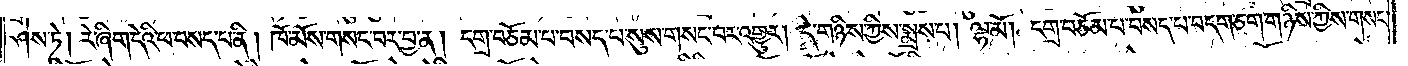ཤེས་ཏེ། རེ་ཞིག་དེའི་ཕ་བསད་པ་ནི། ཁོ་མོས་གསང་བར་བྱ་ན། དགྲ་བཅོམ་པ་བསད་པ་སུས་གསང་བར་འགྱུར། དེ་གཉིས་ཀྱིས་སྨྲས་པ། ལྷ་མོ། དགྲ་བཅོམ་པ་བསད་པ་བདག་ཅག་གཉིས་ཀྱིས་གསང་
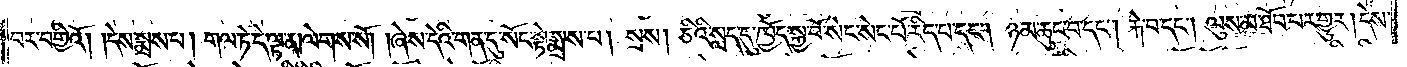བར་བགྱིའོ། །དེས་སྨྲས་པ། གལ་ཏེ་དེ་ལྟ་ན།ལེགས་སོ། །ཞེས་དེའི་གན་དུ་སོང་སྟེ་སྨྲས་པ། སྲས། ཅིའི་སླད་དུ་ཁྱོད་སྐྱ་བོ་སེང་སེང་པོ་རིད་པ་དང༌། ཉམ་ཆུང་བ་དང༌། རྐ་བ་དང༌། ལུས་མ་ཐོབ་པར་གྱུར། དེས་
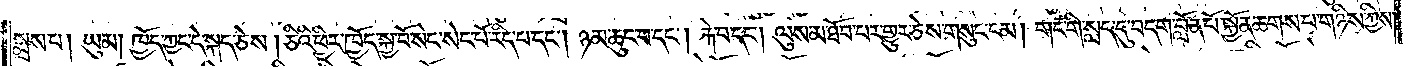སྨྲས་པ། ཡུམ། ཁྱོད་ཀྱང་དེ་སྐད་ཅེས། ཅིའི་ཕྱིར་ཁྱོད་སྐྱ་བོ་སེང་སེང་པོ་རིད་པ་དང༌། ཉམ་ཆུང་བ་དང༌། རྐེ་བ་དང་ལུས་མ་ཐོབ་པར་གྱུར་ཅིས་གསུང་ངམ། གང་གི་སླད་དུ་བདག་བློན་པོ་སྐྱོན་ཆགས་པ་གཉིས་ཀྱིས་
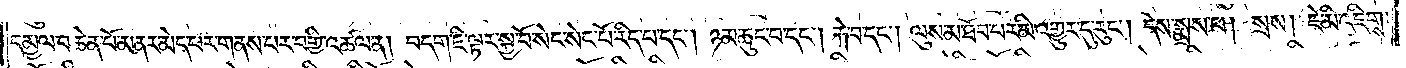དམྱལ་བ་ཆེན་པོ་མནར་མེད་པར་གནས་པར་བགྱི་འཚལ་ན། བདག་ཇི་ལྟར་སྐྱ་བོ་སེང་སེང་པོ་རིད་པ་དང༌། ཉམ་ཆུང་བ་དང༌། རྐེ་བ་དང༌། ལུས་མ་ཐོབ་པར་མི་འགྱུར་དུ་རུང༌། དེས་སྨྲས་པ། སྲས། ཇེ་མི་འཇིགས་
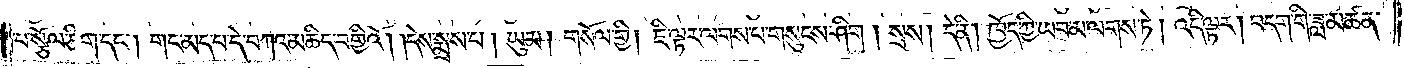པ་སྩོལ་ཅིག་དང༌། གང་མད་པ་དེ་བཀའ་མཆིད་བགྱིའོ། །དེས་སྨྲས་པ། ཡུམ། གསོལ་གྱི། ཇི་ལྟར་ལགས་པ་གསུངས་ཤིག །སྲས། དེ་ནི། ཁྱོད་ཀྱི་ཡབ་མ་ལགས་ཏེ། འདི་ལྟར། བདག་གི་ཟླ་མཚན་
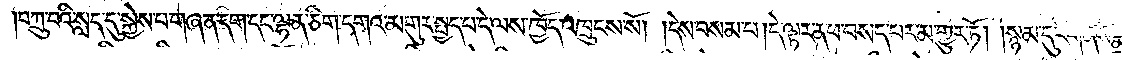བཀྲུ་བའི་སླད་དུ་སྐྱེས་པ་གཞན་དག་དང་ལྷན་ཅིག་དགའ་མགུར་སྤྱད་པ་དེ་ལས་ཁྱོད་འཁྲུངས་སོ། །དེས་བསམ་པ། དེ་ལྟར་ན་ཕ་བསད་པར་མ་གྱུར་ཏོ། །སྙམ་དུ་རིག་ནས་སྨྲས་
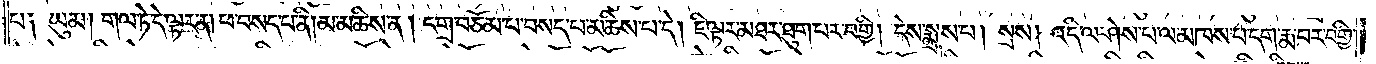པ༑ ཡུམ། གལ་ཏེ་དེ་ལྟར་ན། ཕ་བསད་པ་ནི། མ་མཆིས་ན། དགྲ་བཅོམ་པ་བསད་པ་མཆིས་པ་དེ། ཇི་ལྟར་མཐར་ཐུག་པར་བགྱི། དེས་སྨྲས་པ། སྲས། འདི་ལ་ཤེས་པ་ལ་མཁས་པ་དག་རྨ་བར་བགྱི་
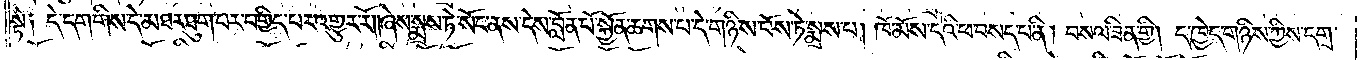སྟེ༑ དེ་དག་གིས་དེ་མཐར་ཐུག་པར་བགྱིད་པར་འགྱུར་རོ། །ཞེས་སྨྲས་ཏེ་སོང་ནས་དེས་བློན་པོ་སྐྱོན་ཆགས་པ་དེ་གཉིས་པོས་ཏེ་སྨྲས་པ། ཁོ་མོས་དེའི་ཕ་བསད་པ་ནི། བསལ་ཟིན་གྱི། ད་ཁྱེད་གཉིས་ཀྱིས་དགྲ་
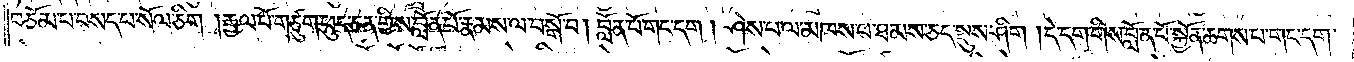བཅོམ་པ་བསད་པ་སོལ་ཅིག །རྒྱལ་པོ་གཙུག་ཕུད་ཅན་གྱིས་བློན་པོ་རྣམས་ལ་བསྒོ་བ། བློན་པོ་གང་དག །ཤེས་པ་ལ་མཁས་པ་ཐམས་ཅད་སྡུས་ཤིག །དེ་དག་གིས་བློན་པོ་སྐྱོན་ཆགས་པ་གང་དག་
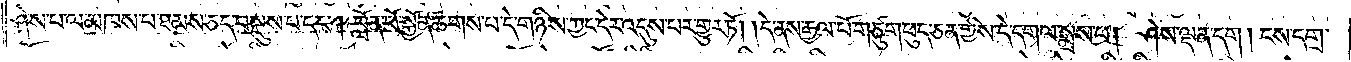ཤེས་པ་ལ་མཁས་པ་ཐམས་ཅད་བསྡུས་པ་དང༌། བློན་པོ་སྐྱོན་ཆགས་པ་དེ་གཉིས་ཀྱང་དེར་འདུས་པར་གྱུར་ཏོ། །དེ་ནས་རྒྱལ་པོ་གཙུག་ཕུད་ཅན་གྱིས་དེ་དག་ལ་སྨྲས་པ། ཤེས་ལྡན་དག །ངས་དགྲ་
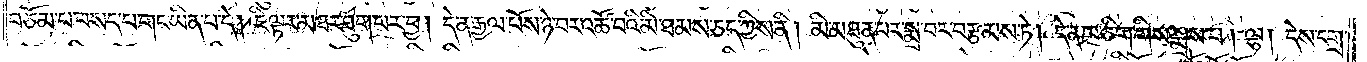བཅོམ་པ་བསད་པ་གང་ཡིན་པ་དེ། ཇི་ལྟར་མཐར་ཐུག་པར་བྱ། དེ་ན་རྒྱལ་པོས་ཉེ་བར་འཚོ་བའི་མི་ཐམས་ཅད་ཀྱིས་ནི། མི་མཐུན་པར་སྨྲ་བར་བརྩམས་ཏེ། དེ་ན་ཁ་ཅིག་གིས་སྨྲས་པ། ལྷ། དེས་དགྲ་
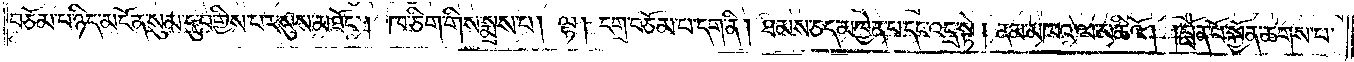བཅོམ་པ་ཉིད་མངོན་སུམ་དུ་བགྱིས་པར་སུས་མཐོང༌། ཁ་ཅིག་གིས་སྨྲས་པ། ལྷ། དགྲ་བཅོམ་པ་དག་ནི། ཐམས་ཅད་མཁྱེན་པ་དང་འདྲ་སྟེ། ནམ་མཁའ་ལ་མཆིའོ། །བློན་པོ་སྐྱོན་ཆགས་པ་
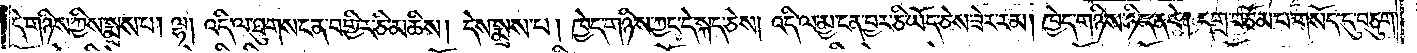དེ་གཉིས་ཀྱིས་སྨྲས་པ། ལྷ། འདི་ལ་ཐུགས་ངན་བགྱིར་ཅི་མཆིས། དེས་སྨྲས་པ། ཁྱེད་གཉིས་ཀྱང་དེ་སྐད་ཅེས། འདི་ལ་མྱ་ངན་བྱར་ཅི་ཡོད་ཅེས་ཟེར་རམ། ཁྱེད་གཉིས་ཉིད་ན་རེ། དགྲ་བཅོམ་པ་གསོད་དུ་བཅུག་
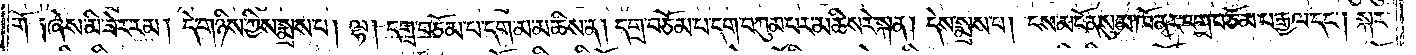གོ ༑ཞེས་མི་ཟེར་རམ། དེ་གཉིས་ཀྱིས་སྨྲས་པ། ལྷ། དགྲ་བཅོམ་པ་དག་མ་མཆིས་ན། དགྲ་བཅོམ་པ་དག་བཀུམ་པར་མཆིས་རེ་སྐན། དེས་སྨྲས་པ། ངས་མངོན་སུམ་ཁོ་ནར་དགྲ་བཅོམ་པ་རྒྱལ་དང༌། སྐར་
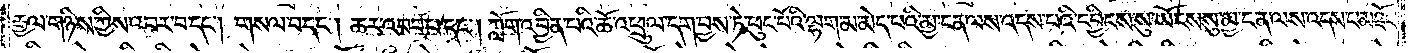རྒྱལ་གཉིས་ཀྱིས་འབར་བ་དང༌། གསལ་བ་དང༌། ཆར་འབབ་པ་དང༌། ཀློག་འབྱིན་པའི་ཆོ་འཕྲུལ་དག་བྱས་ཏེ་ཕུང་པོའི་ལྷག་མ་མེད་པའི་མྱ་ངན་ལས་འདས་པའི་དབྱིངས་སུ་ཡོངས་སུ་མྱ་ངན་ལས་འདས་པ་མཐོང་
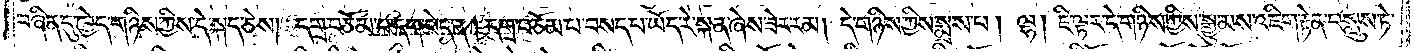བཞིན་དུ་ཁྱེད་གཉིས་ཀྱིས་དེ་སྐད་ཅེས། དགྲ་བཅོམ་པ་དག་མེད་ན། དགྲ་བཅོམ་པ་བསད་པ་ཡོད་རེ་སྐན་ཞེས་ཟེར་རམ། དེ་གཉིས་ཀྱིས་སྨྲས་པ། ལྷ། ཇི་ལྟར་དེ་གཉིས་ཀྱིས་སྒྱུ་མས་འཇིག་རྟེན་བསླུས་ཏེ་
